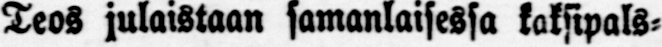Teos julaistaan samanlaisessa kaksipals-
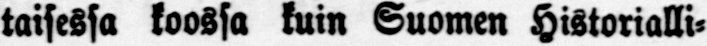taisessa koossa kuin Suomen Historialli-
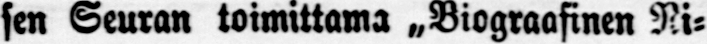sen Seuran toimittama „Biograafinen Ni-
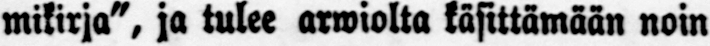mikirja", ja tulee arwiolta käsittämään noin
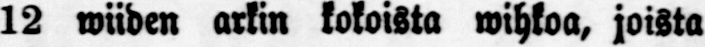12 wiiden arkin kokoista wihkoa, joista
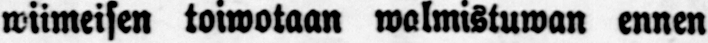wiimeisen toiwotaan walmistuwan ennen
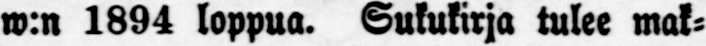w:n 1894 loppua. Sukukirja tulee mak-
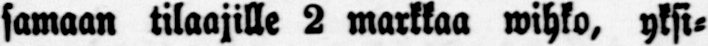samaan tilaajille 2 markkaa wihko, yksi-
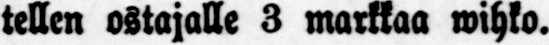tellen ostajalle 3 markkaa wihko.
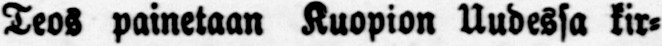Teos painetaan Kuopion Uudessa kir-
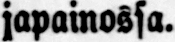japainossa.
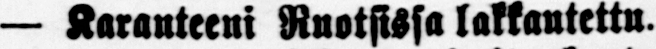— Karanteeni Ruotsissa lakkautettu.
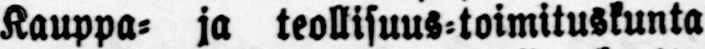Kauppa- ja teollisuus-toimituskunta
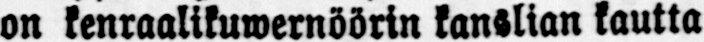on kenraalikuwernöörin kanslian kautta
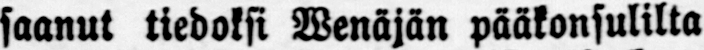saanut tiedoksi Wenäjän pääkonsulilta
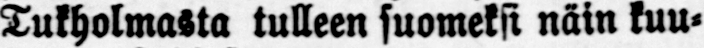Tukholmasta tulleen suomeksi näin kuu-
